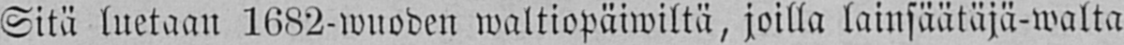Sitä luetaan 1682-wuoden waltiopäiwiltä, joilla lainsäätäjä-walta
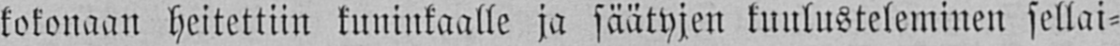kokonaan heitettiin kuninkaalle ja säätyjen kuulusteleminen sellai-
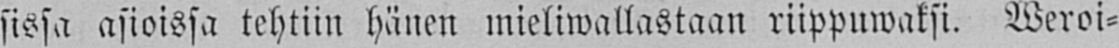sissa asioissa tehtiin hänen mieliwallastaan riippuwaksi. Weroi-
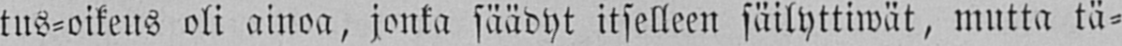tus-oikeus oli ainoa, jonka säädyt itselleen säilyttiwät, mutta tä-
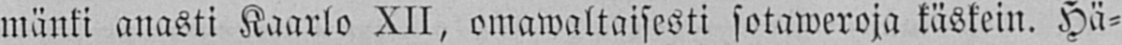mänki anasti Kaarlo XII, omawaltaisesti sotaweroja käskein. Hä-
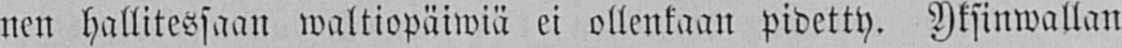nen hallitessaan waltiopäiwiä ei ollenkaan pidetty. Yksinwallan
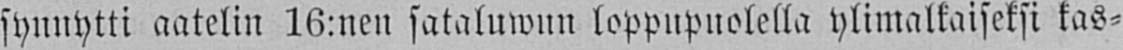synnytti aatelin 16:nen sataluwun loppupuolella ylimalkaiseksi kas-
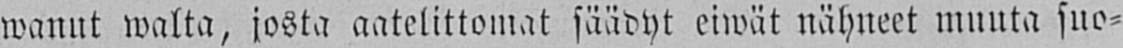wanut walta, josta aatelittomat säädyt eiwät nähneet muuta suo-
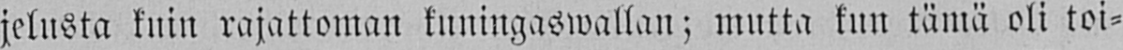jelusta kuin rajattoman kuningaswallan; mutta kun tämä oli toi-
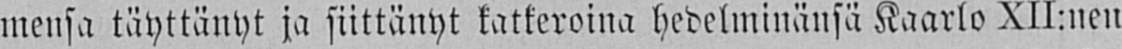mensa täyttänyt ja siittänyt katkeroina hedelminänsä Kaarlo XII:nen
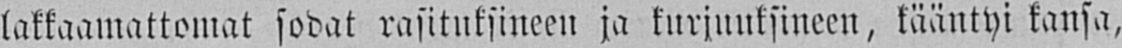lakkaamattomat sodat rasituksilleen ja kurjuuksilleen, kääntyi kansa,
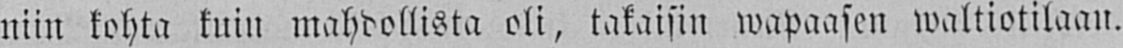niin kohta kuin mahdollista oli, takaisin wapaasen waltiotilaan.
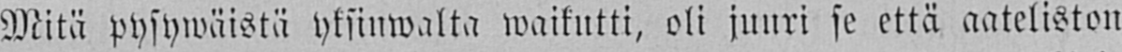Mitä pysywäistä yksinwalta waikutti, oli juuri se että aateliston
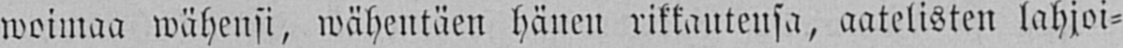woimaa wähensi, wähentäen hänen rikkautensa, aatelisten lahjoi-
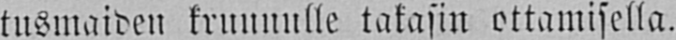tusmaiden kruunulle takasin ottamisella.
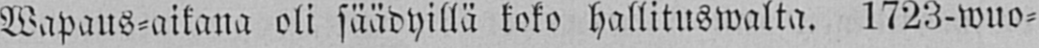Wapaus-aikana oli säädyillä koko hallituswalta. 1723-wuo-
